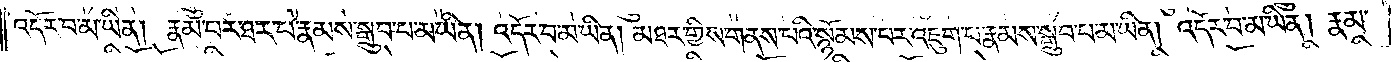འདོར་བ་མ་ཡིན། རྣམ་པར་ཐར་པ་རྣམས་སྒྲུབ་པ་མ་ཡིན། འདོར་བ་མ་ཡིན། མཐར་གྱིས་གནས་པའི་སྙོམས་པར་འཇུག་པ་རྣམས་སྒྲུབ་པ་མ་ཡིན། འདོར་བ་མ་ཡིན། རྣམ་
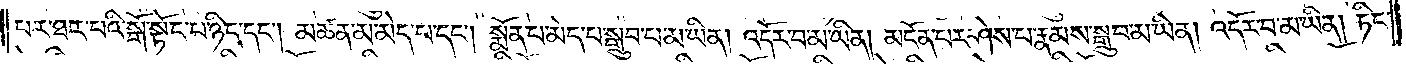པར་ཐར་པའི་སྒོ་སྟོང་པ་ཉིད་དང༌། མཚན་མ་མེད་པ་དང༌། སྨོན་པ་མེད་པ་སྒྲུབ་པ་མ་ཡིན། འདོར་བ་མ་ཡིན། མངོན་པར་ཤེས་པ་རྣམས་སྒྲུབ་པ་མ་ཡིན། འདོར་བ་མ་ཡིན། ཏིང་
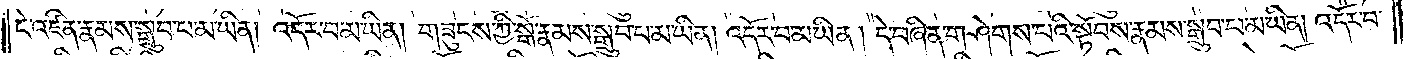ངེ་འཛིན་རྣམས་སྒྲུབ་པ་མ་ཡིན། འདོར་བ་མ་ཡིན། གཟུངས་ཀྱི་སྒོ་རྣམས་སྒྲུབ་པ་མ་ཡིན། འདོར་བ་མ་ཡིན། དེ་བཞིན་གཤེགས་པའི་སྟོབས་རྣམས་སྒྲུབ་པ་མ་ཡིན། འདོར་བ་
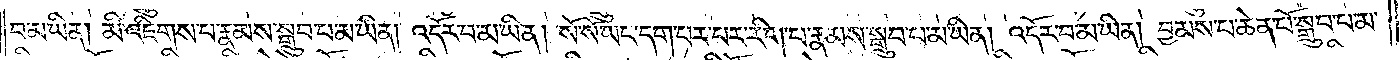བ་མ་ཡིན། མི་འཇིགས་པ་རྣམས་སྒྲུབ་པ་མ་ཡིན། འདོར་བ་མ་ཡིན། སོ་སོ་ཡང་དག་པར་རིག་པ་རྣམས་སྒྲུབ་པ་མ་ཡིན། འདོར་བ་མ་ཡིན། བྱམས་པ་ཆེན་པོ་སྒྲུབ་པ་མ་
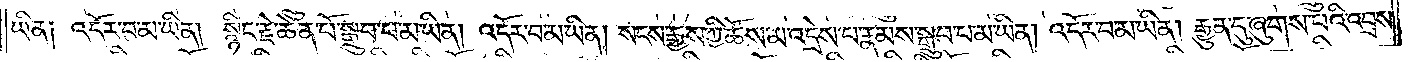ཡིན༑ འདོར་བ་མ་ཡིན། སྙིང་རྗེ་ཆེན་པོ་སྒྲུབ་པ་མ་ཡིན། འདོར་བ་མ་ཡིན། སངས་རྒྱས་ཀྱི་ཆོས་མ་འདྲེས་པ་རྣམས་སྒྲུབ་པ་མ་ཡིན། འདོར་བ་མ་ཡིན། རྒྱུན་དུ་ཞུགས་པའི་འབྲས་
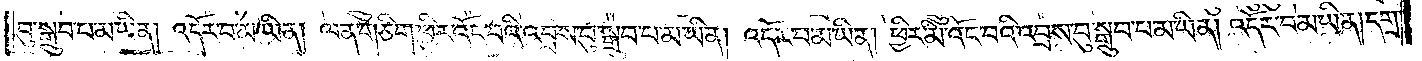བུ་སྒྲུབ་པ་མ་ཡིན། འདོར་བ་མ་ཡིན། ལན་གཅིག་ཕྱིར་འོང་བའི་འབྲས་བུ་སྒྲུབ་པ་མ་ཡིན། འདོར་བ་མ་ཡིན། ཕྱིར་མི་འོང་བའི་འབྲས་བུ་སྒྲུབ་པ་མ་ཡིན། འདོར་བ་མ་ཡིན། དགྲ་
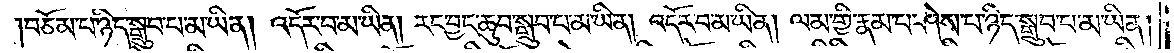བཅོམ་པ་ཉིད་སྒྲུབ་པ་མ་ཡིན། འདོར་བ་མ་ཡིན། རང་བྱང་ཆུབ་སྒྲུབ་པ་མ་ཡིན། འདོར་བ་མ་ཡིན། ལམ་གྱི་རྣམ་པ་ཤེས་པ་ཉིད་སྒྲུབ་པ་མ་ཡིན།
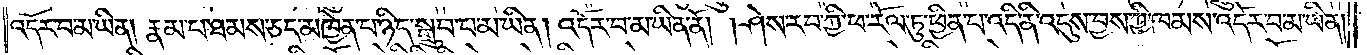འདོར་བ་མ་ཡིན། རྣམ་པ་ཐམས་ཅད་མཁྱེན་པ་ཉིད་སྒྲུབ་པ་མ་ཡིན། འདོར་བ་མ་ཡིན་ནོ། །ཤེས་རབ་ཀྱི་ཕ་རོལ་ཏུ་ཕྱིན་པ་འདི་ནི་འདུས་བྱས་ཀྱི་ཁམས་འདོར་བ་མ་ཡིན།
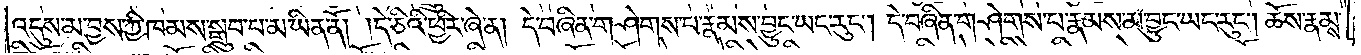འདུས་མ་བྱས་ཀྱི་ཁམས་སྒྲུབ་པ་མ་ཡིན་ནོ། །དེ་ཅིའི་ཕྱིར་ཞེ་ན། དེ་བཞིན་གཤེགས་པ་རྣམས་བྱུང་ཡང་རུང༌། དེ་བཞིན་གཤེགས་པ་རྣམས་མ་བྱུང་ཡང་རུང༌། ཆོས་རྣམས་
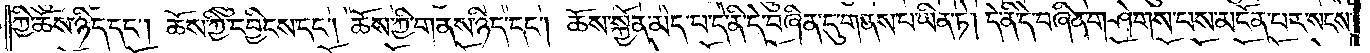ཀྱི་ཆོས་ཉིད་དང༌། ཆོས་ཀྱི་དབྱིངས་དང༌། ཆོས་ཀྱི་གནས་ཉིད་དང༌། ཆོས་སྐྱོན་མེད་པ་དེ་ནི་དེ་བཞིན་དུ་གནས་པ་ཡིན་ཏེ། དེ་ནི་དེ་བཞིན་གཤེགས་པས་མངོན་པར་སངས་
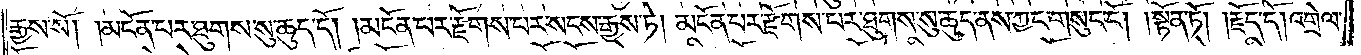རྒྱས་སོ། །མངོན་པར་ཐུགས་སུ་ཆུད་དོ། །མངོན་པར་རྫོགས་པར་སངས་རྒྱས་ཏེ། མངོན་པར་རྫོགས་པར་ཐུགས་སུ་ཆུད་ནས་ཀྱང་གསུང་ངོ༌། །སྟོན་ཏོ། །རྗོད་དོ། འགྲེལ་
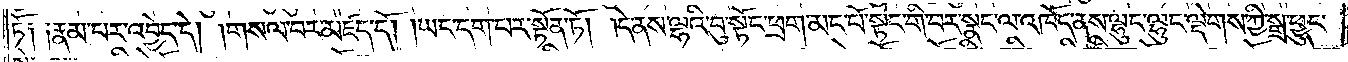ཏོ༑ ༑རྣམ་པར་འབྱེད་དོ། །གསལ་བར་མཛད་དོ། །ཡང་དག་པར་སྟོན་ཏོ། །དེ་ནས་ལྷའི་བུ་སྟོང་ཕྲག་མང་པོ་སྟོང་གི་བར་སྣང་ལ་འཁོད་ནས་ལྷུང་ལྷུང་ལྡེགས་ཀྱི་སྒྲ་ཕྱུང་
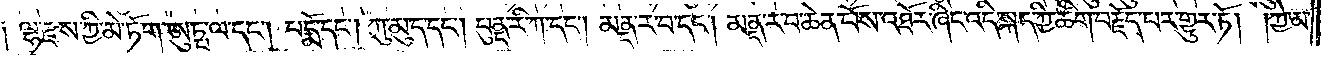༑ ལྷ་རྫས་ཀྱི་མེ་ཏོག་ཨུཏྤལ་དང༌། པདྨ་དང༌། ཀུ་མུད་དང༌། པུནྡ་རི་ཀ་དང༌། མནྡ་ར་བ་དང༌། མནྡ་ར་བ་ཆེན་པོས་འཐོར་ཞིང་འདི་སྐད་ཀྱི་ཚིག་བརྗོད་པར་གྱུར་ཏོ། །ཀྱེ་མ་
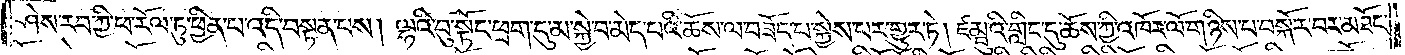ཤེས་རབ་ཀྱི་ཕ་རོལ་ཏུ་ཕྱིན་པ་འདི་བསྟན་པས། ལྷའི་བུ་སྟོང་ཕྲག་དུ་མ་སྐྱེ་བ་མེད་པའི་ཆོས་ལ་བཟོད་པ་སྐྱེས་པར་གྱུར་ཏེ། ཛམྦུའི་གླིང་དུ་ཆོས་ཀྱི་འཁོར་ལོ་གཉིས་པ་བསྐོར་བར་མཐོང་
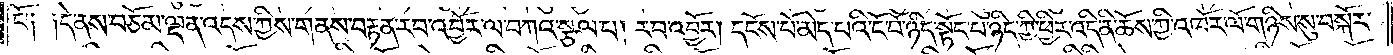ངོ༑ ༑དེ་ནས་བཅོམ་ལྡན་འདས་ཀྱིས་གནས་བརྟན་རབ་འབྱོར་ལ་བཀའ་སྩལ་པ། རབ་འབྱོར། དངོས་པོ་མེད་པའི་ངོ་བོ་ཉིད་སྟོང་པ་ཉིད་ཀྱི་ཕྱིར་འདི་ནི་ཆོས་ཀྱི་འཁོར་ལོ་གཉིས་སུ་བསྐོར་
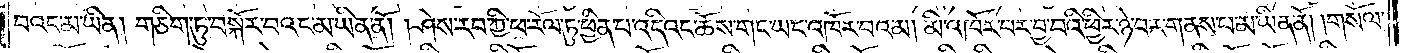བའང་མ་ཡིན། གཅིག་ཏུ་བསྐོར་བའང་མ་ཡིན་ནོ། །ཤེས་རབ་ཀྱི་ཕ་རོལ་ཏུ་ཕྱིན་པ་འདིའང་ཆོས་གང་ཡང་འཁོར་བའམ། མི་འཁོར་བར་བྱ་བའི་ཕྱིར་ཉེ་བར་གནས་པ་མ་ཡིན་ནོ། །གསོལ་
